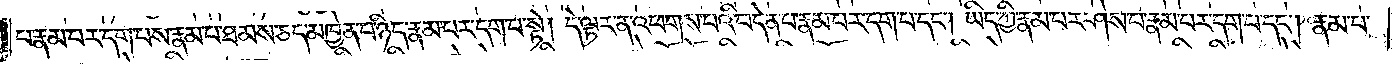པ་རྣམ་པར་དག་པས་རྣམ་པ་ཐམས་ཅད་མཁྱེན་པ་ཉིད་རྣམ་པར་དག་པ་སྟེ། དེ་ལྟར་ན་འཕགས་པའི་བདེན་པ་རྣམ་པར་དག་པ་དང༌། ཡིད་ཀྱི་རྣམ་པར་ཤེས་པ་རྣམ་པར་དག་པ་དང༌། རྣམ་པ་
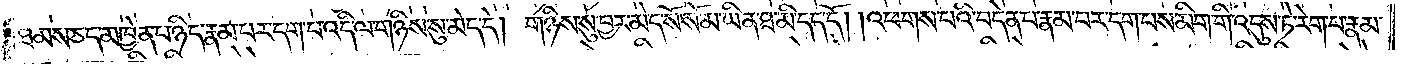ཐམས་ཅད་མཁྱེན་པ་ཉིད་རྣམ་པར་དག་པ་འདི་ལ་གཉིས་སུ་མེད་དེ། གཉིས་སུ་བྱར་མེད་སོ་སོ་མ་ཡིན་ཐ་མི་དད་དོ། །འཕགས་པའི་བདེན་པ་རྣམ་པར་དག་པས་མིག་གི་འདུས་ཏེ་རེག་པ་རྣམ་
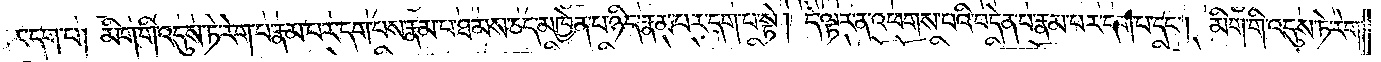པར་དག་པ། མིག་གི་འདུས་ཏེ་རེག་པ་རྣམ་པར་དག་པས་རྣམ་པར་ཐམས་ཅད་མཁྱེན་པ་ཉིད་རྣམ་པར་དག་པ་སྟེ། དེ་ལྟར་ན་འཕགས་པའི་བདེན་པ་རྣམ་པར་དག་པ་དང༌། མིག་གི་འདུས་ཏེ་རེག་
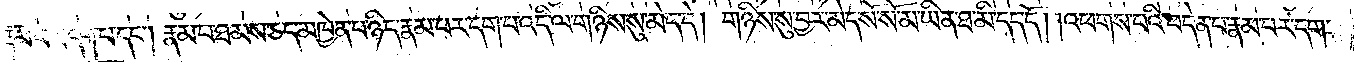པ་རྣམ་པར་དག་པ་དང༌། རྣམ་པ་ཐམས་ཅད་མཁྱེན་པ་ཉིད་རྣམ་པར་དག་པ་འདི་ལ་གཉིས་སུ་མེད་དེ། གཉིས་སུ་བྱར་མེད་སོ་སོ་མ་ཡིན་ཐ་མི་དད་དོ། །འཕགས་པའི་བདེན་པ་རྣམ་པར་དག་
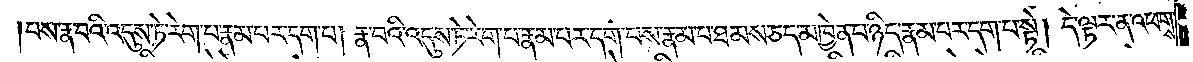པས་རྣ་བའི་འདུས་ཏ་རེག་པ་རྣམ་པར་དག་པ། རྣ་བའི་འདུས་ཏེ་རེག་པ་རྣམ་པར་དག་པས་རྣམ་པ་ཐམས་ཅད་མཁྱེན་པ་ཉིད་རྣམ་པར་དག་པ་སྟེ། དེ་ལྟར་ན་འཕགས་
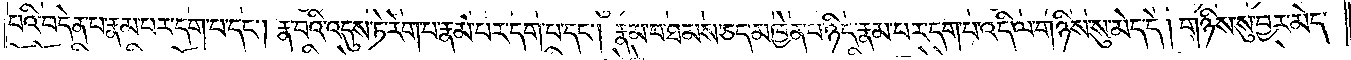པའི་བདེན་པ་རྣམ་པར་དག་པ་དང༌། རྣ་བའི་འདུས་ཏེ་རེག་པ་རྣམ་པར་དག་པ་དང༌། རྣམ་པ་ཐམས་ཅད་མཁྱེན་པ་ཉིད་རྣམ་པར་དག་པ་འདི་ལ་གཉིས་སུ་མེད་དེ། གཉིས་སུ་བྱར་མེད་
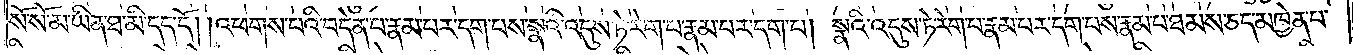སོ་སོ་མ་ཡིན་ཐ་མི་དད་དོ། །འཕགས་པའི་བདེན་པ་རྣམ་པར་དག་པས་སྣའི་འདུས་ཏེ་རེག་པ་རྣམ་པར་དག་པ། སྣའི་འདུས་ཏེ་རེག་པ་རྣམ་པར་དག་པས་རྣམ་པ་ཐམས་ཅད་མཁྱེན་པ་
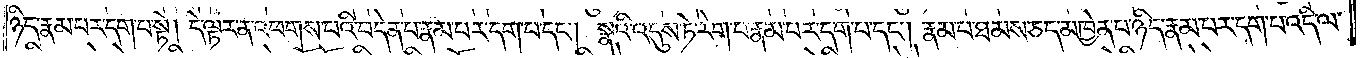ཉིད་རྣམ་པར་དག་པ་སྟེ། དེ་ལྟར་ན་འཕགས་པའི་བདེན་པ་རྣམ་པར་དག་པ་དང༌། སྣའི་འདུས་ཏེ་རེག་པ་རྣམ་པར་དག་པ་དང༌། རྣམ་པ་ཐམས་ཅད་མཁྱེན་པ་ཉིད་རྣམ་པར་དག་པ་འདི་ལ་
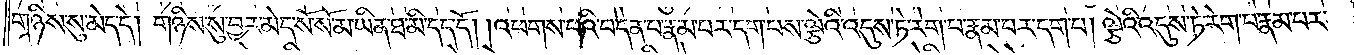གཉིས་སུ་མེད་དེ། གཉིས་སུ་བྱར་མེད་སོ་སོ་མ་ཡིན་ཐ་མི་དད་དོ། །འཕགས་པའི་བདེན་པ་རྣམ་པར་དག་པས་ལྕེའི་འདུས་ཏེ་རེག་པ་རྣམ་པར་དག་པ། ལྕེའི་འདུས་ཏེ་རེག་པ་རྣམ་པར་
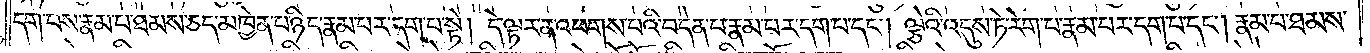དག་པས་རྣམ་པ་ཐམས་ཅད་མཁྱེན་པ་ཉིད་རྣམ་པར་དག་པ་སྟེ། ད་ལྟར་ན་འཕགས་པའི་བདེན་པ་རྣམ་པར་དག་པ་དང༌། ལྕེའི་འདུས་ཏེ་རེག་པ་རྣམ་པར་དག་པ་དང༌། རྣམ་པ་ཐམས་
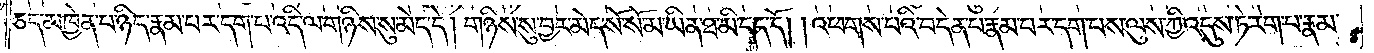ཅད་མཁྱེན་པ་ཉིད་རྣམ་པར་དག་པ་འདི་ལ་གཉིས་སུ་མེད་དེ། གཉིས་སུ་བྱར་མེད་སོ་སོ་མ་ཡིན་ཐ་མི་དད་དོ། །འཕགས་པའི་བདེན་པ་རྣམ་པར་དག་པས་ལུས་ཀྱི་འདུས་ཏེ་རེག་པ་རྣམ་
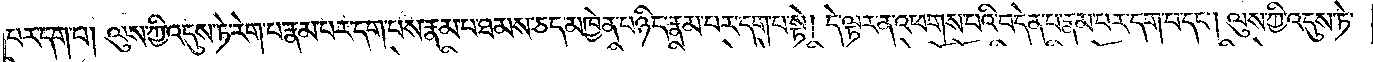པར་དག་པ། ལུས་ཀྱི་འདུས་ཏེ་རེག་པ་རྣམ་པར་དག་པས་རྣམ་པ་ཐམས་ཅད་མཁྱེན་པ་ཉིད་རྣམ་པར་དག་པ་སྟེ། དེ་ལྟར་ན་འཕགས་པའི་བདེན་པ་རྣམ་པར་དག་པ་དང༌། ལུས་ཀྱི་འདུས་ཏེ་
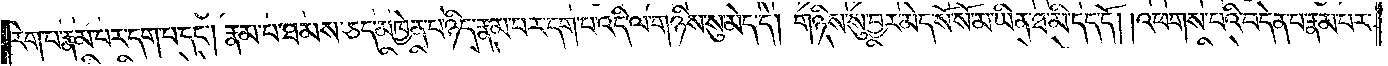རེག་པ་རྣམ་པར་དག་པ་དང༌། རྣམ་པ་ཐམས་ཅད་མཁྱེན་པ་ཉིད་རྣམ་པར་དག་པ་འདི་ལ་གཉིས་སུ་མེད་དེ། གཉིས་སུ་བྱར་མེད་སོ་སོ་མ་ཡིན་ཐ་མི་དད་དོ། །འཕགས་པའི་བདེན་པ་རྣམ་པར་
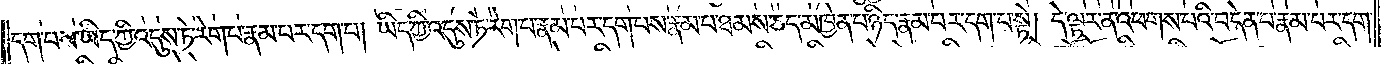དག་པས་ཡིད་ཀྱི་འདུས་ཏེ་རེག་པ་རྣམ་པར་དག་པ། ཡིད་ཀྱི་འདུས་ཏེ་རེག་པ་རྣམ་པར་དག་པས་རྣམ་པ་ཐམས་ཅད་མཁྱེན་པ་ཉིད་རྣམ་པར་དག་པ་སྟེ། དེ་ལྟར་ན་འཕགས་པའི་བདེན་པ་རྣམ་པར་དག་
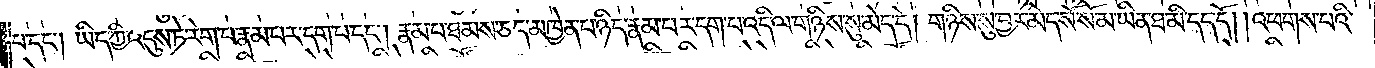པ་དང༌། ཡིད་ཀྱི་འདུས་ཏེ་རེག་པ་རྣམ་པར་དག་པ་དང༌། རྣམ་པ་ཐམས་ཅད་མཁྱེན་པ་ཉིད་རྣམ་པར་དག་པ་འདི་ལ་གཉིས་སུ་མེད་དེ། གཉིས་སུ་བྱར་མེད་སོ་སོ་མ་ཡིན་ཐ་མི་དད་དོ། །འཕགས་པའི་
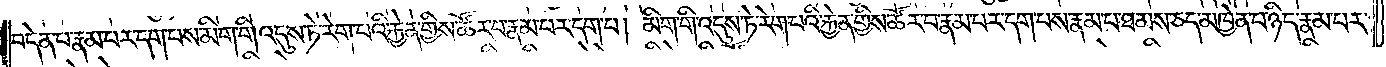བདེན་པ་རྣམ་པར་དག་པས་མིག་གི་འདུས་ཏེ་རེག་པའི་རྐྱེན་གྱིས་ཚོར་བ་རྣམ་པར་དག་པ། མིག་གི་འདུས་ཏེ་རེག་པའི་རྐྱེན་གྱིས་ཚོར་བ་རྣམ་པར་དག་པས་རྣམ་པ་ཐམས་ཅད་མཁྱེན་པ་ཉིད་རྣམ་པར་
